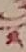༢
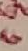༦
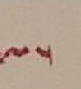ལ་།
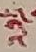འི
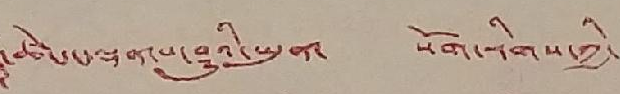་ཚེ་དང་ལྡན་པ་ཤུའི་ཡུན་ སོག་རིགས་ཀྱི་
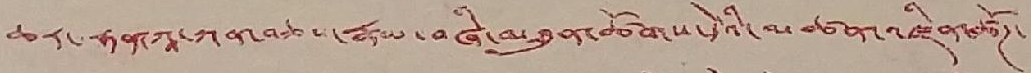ཆར་ཧན་ཀཱ་ཀན་བཅས་རྣམ་བཞི་མཐུན་ཚོགས་དེའི་མཚན་འཛིན་ཚོཊ་
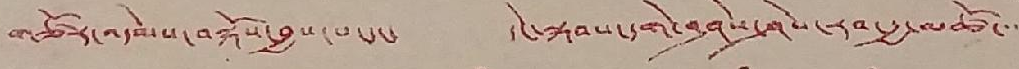གཙོར་འདེབས་བསྐོས་བྱས་པ་དང་ དེང་སྐབས་དགེ་བཤེས་ཤེས་རབ་རྒྱ་མཚོ་་་
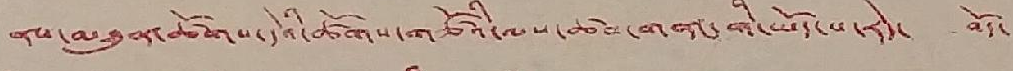ནས་མཐུན་ཚོགས་དེའི་ཚོགས་གཙོའི་ལས་ཚབ་གནང་གི་ཡོད་པ་རེད་ བོད་
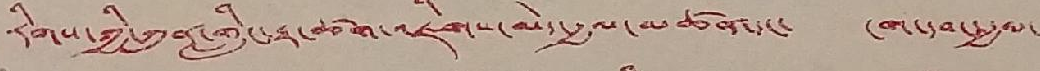རིགས་ཀྱི་ཀུན་གླིང་རྟ་ཚག་འཇིག་མེད་རྒྱལ་མཚན་དང་ ངག་དབང་རྒྱལ་
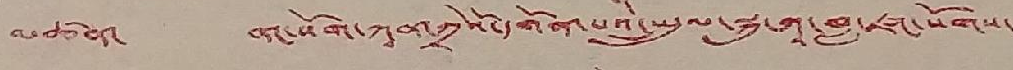མཚན་ ནང་སོག་ཀཱན་ཀྲེའོ་དགོན་པའི་སྤྲུལ་སྐུ་ཀཱ་བླ་ཛང་སོགས་
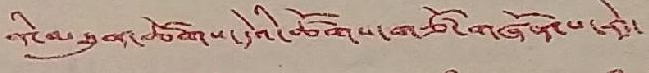ནི་མཐུན་ཚོགས་དེའི་ཚོགས་གཙོ་གཞོན་པ་རེད་
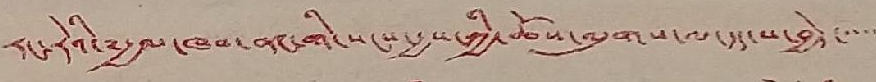རང་རེའི་༸རྒྱལ་ཁབ་ནང་གི་སངས་རྒྱས་ཀྱི་ཆོས་ལུགས་ལ་དད་པ་བྱེད་་་་་
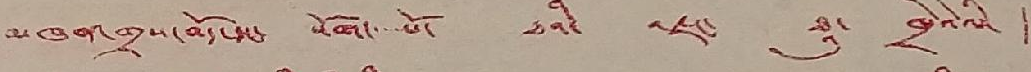མཁན་གྲས་བོད་དང་ སོག་་་་པོ་ ཐའི་ འཇང་ ཐཱུ་ ཁྲེའེ་ལི་ །
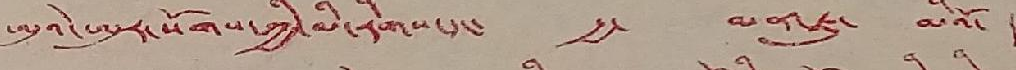ཨུའེ་ཨུར་སོགས་ཀྱི་མི་རིགས་དང་ རྒྱ་ མན་ཇུ་ མིའོ་ །
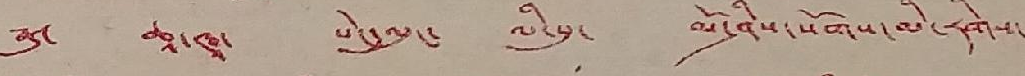རྣུ་ ཆཱ་ཝཱ་ པེང་ལུང་ ལི་པུ་ མོ་ཤེས་སོགས་མི་རིགས་
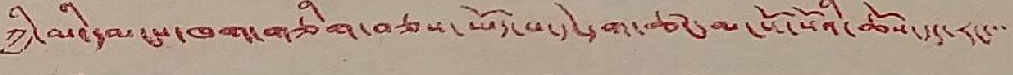ཀྱི་མི་དམངས་ཁག་གཅིག་བཅས་ཡོད་པ་དེ་དག་ཚང་མ་སོ་སོའི་ཆོས་དད་རང་་་་
